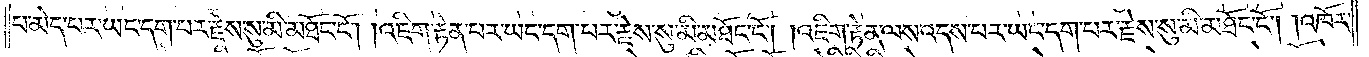པ་མེད་པར་ཡང་དག་པར་རྗེས་སུ་མི་མཐོང་ངོ༌། །འཇིག་རྟེན་པར་ཡང་དག་པར་རྗེས་སུ་མི་མཐོང་ངོ༌། །འཇིག་རྟེན་ལས་འདས་པར་ཡང་དག་པར་རྗེས་སུ་མི་མཐོང་ངོ༌། །འཁོར་
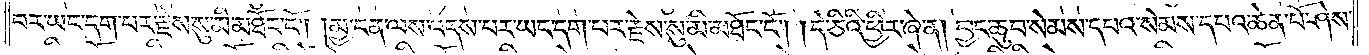བར་ཡང་དག་པར་རྗེས་སུ་མི་མཐོང་ངོ༌། །མྱ་ངན་ལས་འདས་པར་ཡང་དག་པར་རྗེས་སུ་མི་མཐོང་ངོ༌། །དེ་ཅིའི་ཕྱིར་ཞེ་ན། བྱང་ཆུབ་སེམས་དཔའ་སེམས་དཔའ་ཆེན་པོ་ཤེས་
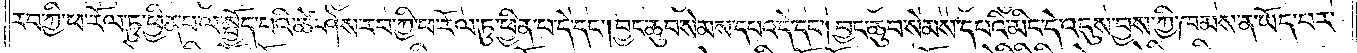རབ་ཀྱི་ཕ་རོལ་ཏུ་ཕྱིན་པ་ལ་སྤྱོད་པའི་ཚེ་ཤེས་རབ་ཀྱི་ཕ་རོལ་ཏུ་ཕྱིན་པ་དེ་དང༌། བྱང་ཆུབ་སེམས་དཔའ་དེ་དང༌། བྱང་ཆུབ་སེམས་དཔའི་མིང་དེ་འདུས་བྱས་ཀྱི་ཁམས་ན་ཡོད་པར་
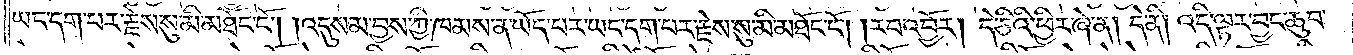ཡང་དག་པར་རྗེས་སུ་མི་མཐོང་ངོ༌། །འདུས་མ་བྱས་ཀྱི་ཁམས་ན་ཡོད་པར་ཡང་དག་པར་རྗེས་སུ་མི་མཐོང་ངོ༌། །རབ་འབྱོར། དེ་ཅིའི་ཕྱིར་ཞེ་ན། དེ་ནི། འདི་ལྟར་བྱང་ཆུབ་
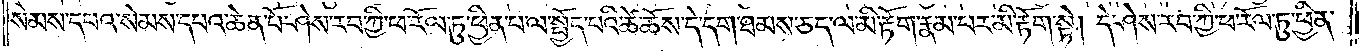སེམས་དཔའ་སེམས་དཔའ་ཆེན་པོ་ཤེས་རབ་ཀྱི་ཕ་རོལ་ཏུ་ཕྱིན་པ་ལ་སྤྱོད་པའི་ཚེ་ཆོས་དེ་དག་ཐམས་ཅད་ལ་མི་རྟོག་རྣམ་པར་མི་རྟོག་སྟེ། དེ་ཤེས་རབ་ཀྱི་ཕ་རོལ་ཏུ་ཕྱིན་
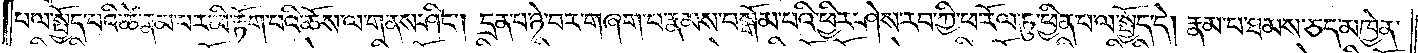པ་ལ་སྤྱོད་པའི་ཚེ་རྣམ་པར་མི་རྟོག་པའི་ཆོས་ལ་གནས་ཤིང༌། དྲན་པ་ཉེ་བར་གཞག་པ་རྣམས་བསྒོམ་པའི་ཕྱིར་ཤེས་རབ་ཀྱི་ཕ་རོལ་ཏུ་ཕྱིན་པ་ལ་སྤྱོད་དེ། རྣམ་པ་ཐམས་ཅད་མཁྱེན་
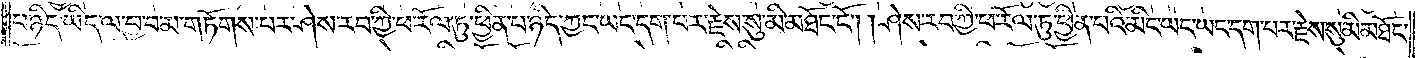པ་ཉིད་ཡིད་ལ་བྱ་བ་མ་གཏོགས་པར་ཤེས་རབ་ཀྱི་ཕ་རོལ་ཏུ་ཕྱིན་པ་ཉིད་ཀྱང་ཡང་དག་པར་རྗེས་སུ་མི་མཐོང་ངོ༌། །ཤེས་རབ་ཀྱི་ཕ་རོལ་ཏུ་ཕྱིན་པའི་མིང་ཡང་དག་པར་རྗེས་སུ་མི་མཐོང་
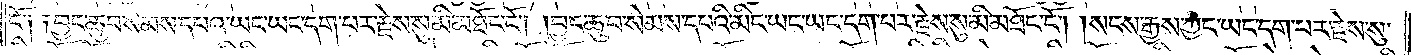ངོ༑ ༑བྱང་ཆུབ་སེམས་དཔའ་ཡང་ཡང་དག་པར་རྗེས་སུ་མི་མཐོང་ངོ༌། །བྱང་ཆུབ་སེམས་དཔའི་མིང་ཡང་ཡང་དག་པར་རྗེས་སུ་མི་མཐོང་ངོ༌། །སངས་རྒྱས་ཀྱང་ཡང་དག་པར་རྗེས་སུ་
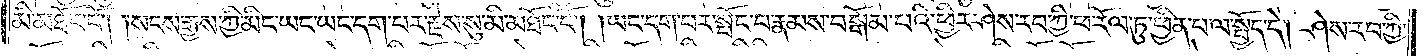མི་མཐོང་ངོ༌། །སངས་རྒྱས་ཀྱི་མིང་ཡང་ཡང་དག་པར་རྗེས་སུ་མི་མཐོང་ངོ༌། །ཡང་དག་པར་སྤོང་བ་རྣམས་བསྒོམ་པའི་ཕྱིར་ཤེས་རབ་ཀྱི་ཕ་རོལ་ཏུ་ཕྱིན་པ་ལ་སྤྱོད་དེ། ཤེས་རབ་ཀྱི་
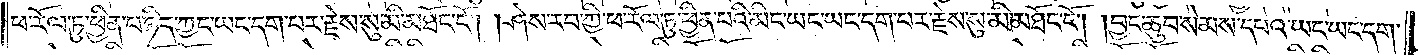ཕ་རོལ་ཏུ་ཕྱིན་པ་ཉིད་ཀྱང་ཡང་དག་པར་རྗེས་སུ་མི་མཐོང་ངོ༌། །ཤེས་རབ་ཀྱི་ཕ་རོལ་ཏུ་ཕྱིན་པའི་མིང་ཡང་ཡང་དག་པར་རྗེས་སུ་མི་མཐོང་ངོ༌། །བྱང་ཆུབ་སེམས་དཔའ་ཡང་ཡང་དག་
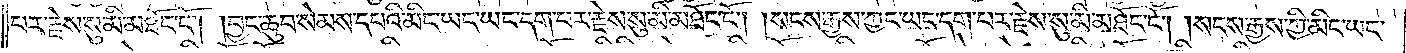པར་རྗེས་སུ་མི་མཐོང་ངོ༌། །བྱང་ཆུབ་སེམས་དཔའི་མིང་ཡང་ཡང་དག་པར་རྗེས་སུ་མི་མཐོང་ངོ༌། །སངས་རྒྱས་ཀྱང་ཡང་དག་པར་རྗེས་སུ་མི་མཐོང་ངོ༌། །སངས་རྒྱས་ཀྱི་མིང་ཡང་
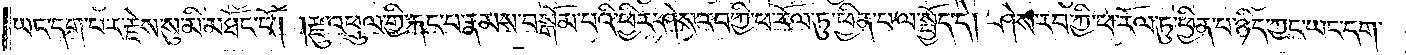ཡང་དག་པར་རྗེས་སུ་མི་མཐོང་ངོ༌། །རྫུ་འཕྲུལ་གྱི་རྐང་པ་རྣམས་བསྒོམ་པའི་ཕྱིར་ཤེས་རབ་ཀྱི་ཕ་རོལ་ཏུ་ཕྱིན་པ་ལ་སྤྱོད་དེ། ཤེས་རབ་ཀྱི་ཕ་རོལ་ཏུ་ཕྱིན་པ་ཉིད་ཀྱང་ཡང་དག་
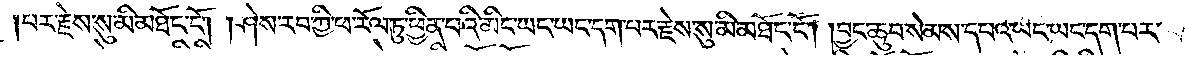པར་རྗེས་སུ་མི་མཐོང་ངོ༌། །ཤེས་རབ་ཀྱི་ཕ་རོལ་ཏུ་ཕྱིན་པའི་མིང་ཡང་ཡང་དག་པར་རྗེས་སུ་མི་མཐོང་ངོ༌། །བྱང་ཆུབ་སེམས་དཔའ་ཡང་ཡང་དག་པར་
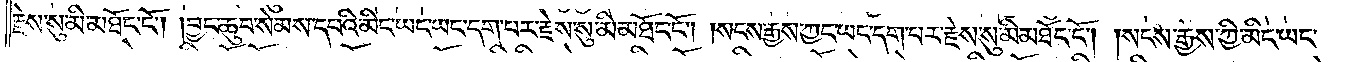རྗེས་སུ་མི་མཐོང་ངོ༌། །བྱང་ཆུབ་སེམས་དཔའི་མིང་ཡང་ཡང་དག་པར་རྗེས་སུ་མི་མཐོང་ངོ༌། །སངས་རྒྱས་ཀྱང་ཡང་དག་པར་རྗེས་སུ་མི་མཐོང་ངོ༌། །སངས་རྒྱས་ཀྱི་མིང་ཡང་
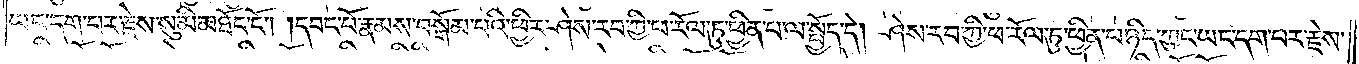ཡང་དག་པར་རྗེས་སུ་མི་མཐོང་ངོ༌། །དབང་པོ་རྣམས་བསྒོམ་པའི་ཕྱིར་ཤེས་རབ་ཀྱི་ཕ་རོལ་ཏུ་ཕྱིན་པ་ལ་སྤྱོད་དེ། ཤེས་རབ་ཀྱི་ཕ་རོལ་ཏུ་ཕྱིན་པ་ཉིད་ཀྱང་ཡང་དག་པར་རྗེས་
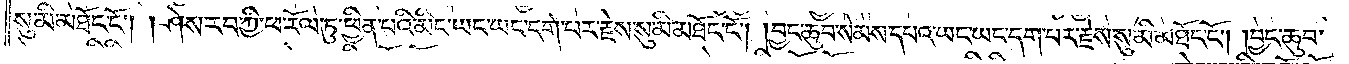སུ་མི་མཐོང་ངོ༌། །ཤེས་རབ་ཀྱི་ཕ་རོལ་ཏུ་ཕྱིན་པའི་མིང་ཡང་ཡང་དག་པར་རྗེས་སུ་མི་མཐོང་ངོ༌། །བྱང་ཆུབ་སེམས་དཔའ་ཡང་ཡང་དག་པར་རྗེས་སུ་མི་མཐོང་ངོ༌། །བྱང་ཆུབ་
